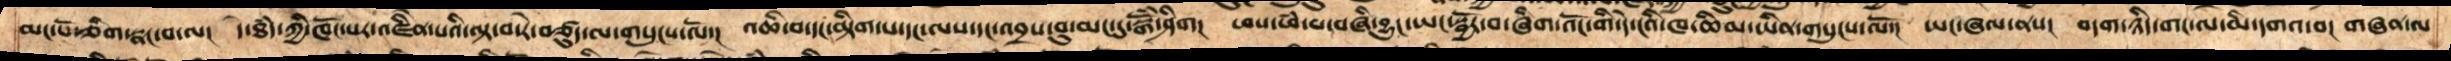མང་པོ་ཞིག་སྣང་བ་ལ།  དེ་ཐཾད་ཀྱི་ཁོང་པར་འཇིེན་པའི་ལྟ་བ་རེ་བཙུད་ལ་གསུངས་ལོ་།  འཆི་བ་དང་མྟིག་པ་དང་ལས་དང་འབྲས་བུ་མང་དུ་སྒོཾ་ཤིག། ཕས་ཕཾ་པ་བཞི་བྱུང་ཡང་སྦྱོར་བ་ཞིག་འོང་གི་དེ་ངའི་ཁ་ཆིམ་ཡིན་གསུངས་ལོ་།  ཡང་ཞལ་ནས།  བདག་ཉིད་གང་ལ་མི་དགའ་བ།  གཞན་ལ་
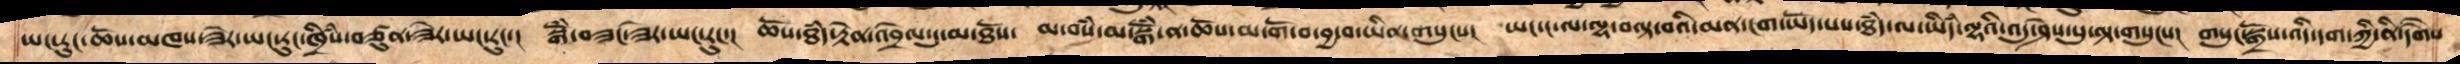ཡང་རུང་ཆོས་མཁས་ཟེར་ཡང་རུང་ཁྲིཾས་བཙུན་ཟེར་ཡང་རུང་།  སྒོཾ་བཟང་ཟེར་ཡང་རུང་།  ཆོས་ཐཾད་རྟེན་འབྲེལ་དུ་མ་ཐོས།  མ་བསཾ་མ་བསྒོཾ་ན་ཆོས་མ་གོ་བ་བྱ་བ་ཡིན་གསུངས།  ཡང་ང་ལ་ལྷ་བལྟ་བའི་མན་ངག་ཡོད་པས་ཐཾད་ལ་ཡིདཾ་ལྷའི་འདུ་ཤེས་སུ་ལྟ་གསུངས།  གསུངསྒྲོས་འདི་དག་ཀྱི་ནི་དགཻས་
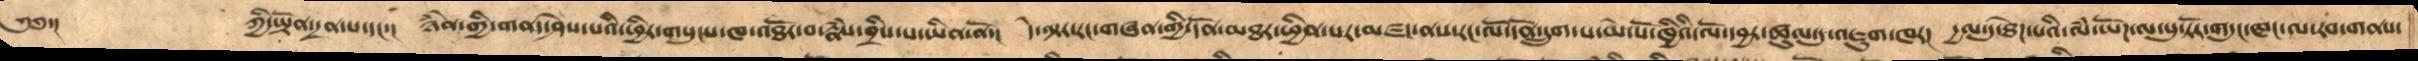༄༅་།    ཀྱི་ཡྟོན་དྲན་པ་དང་།  ཉེཾན་གྱི་གནད་ཤེས་པའི་ཕྱིར་གསུངས་ཁ་འཐོར་བ་རྣཾས་བྲིས་པ་ཡིན་ནོ།  དེ་ལྟར་རང་གཞན་གྱི་དོན་མཐར་ཕྱིན་པར་མཛད་ནས་རང་ལོ་དོན་དྲུག་པ་མེ་པོ་ཁྱིའི་ལོ་དབྱར་ཚུལ་དུ་འཇུག་ཁར།  དྱལ་དུ་ཐེཌ་པའི་ལཾ་ཡོད་ལ་པུ་ཏོར་གདུང་ཁང་ལ་རབ་གནས་
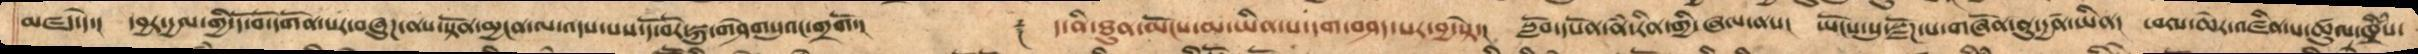མཛད་དེ།  དབྱར་དྱལ་གྱི་དོ་བོ་དགོན་པར་བཞུཌ་ནས་སྟོན་མྱངན་ལ་འདས་པས་དོ་བོར་སྐུ་གཤེགསུའང་གྲགོ་།    ༈  ད་ནི་ཐུན་མོངས་མ་ཡིན་པ་དག་བཤད་པར་བྱ་སྟེ།  སློབ་དཔོན་ནཾ་རིན་གྱི་ཞལ་ནས།  ཡོངས་སུ་སྫོཌ་པ་གཞོན་ནུ་དྱཚན་ཡིན།  ཕལ་ཆེར་འཛིན་པ་ཚུལ་ཁྲིཾས་
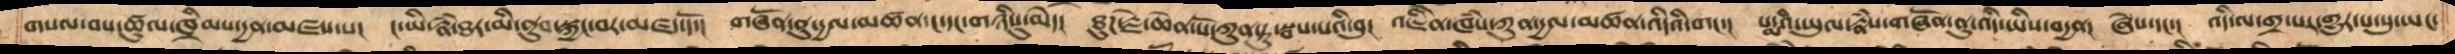གསལ་བས་ཚུལ་ཁྲིམས་དྱན་མཛས་པ།  ང་ཡི་རྣཾ་ཐར་མི་ནུབ་སྐྱང་བར་མཛད་དོ་།  གཞོན་ནུ་དྱལ་མཚན་ང་དང་གཉིསུ་མེད།  ཐུཌ་རྗེ་ཆེན་པོ་ཀུན་ཏུ་སྦས་པའི་བུ།  འཇིེན་ཁཾས་ཀུན་དྱལ་མཚན་འདིའི་གང་།  པདྨའི་ཡུལ་རྣཾས་གཞོན་ནུ་འདི་ཡིས་བདྱན།  ཞེས་དང་།  འདི་ལ་གྲ་པར་གྱུར་པ་སུ་ཡང་
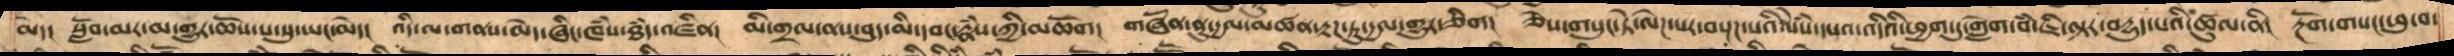མེད།   སློབ་མར་མ་གྱུར་ཆོས་པ་སུ་ཡང་མེད།  འདི་ལ་གནས་མེད་ཞིང་ཁཾས་ཐཾད་འཛིན།  མི་གྲལ་ནས་བུད་མི་དབང་རྣཾས་ཀྱི་མཆོག   གཞོན་ནུ་དྱལ་མཚན་རྟཌ་ཏུ་དྱལ་གྱུར་ཅིག  ཅེས་གསུང་ཏེ་ལེཌ་པར་བསྔཌ་པའི་སེསཾ་དཔའ་འདིའི་ཕྱག་དུ་གླེག་བཾ་ཇི་ལྟར་བདྱུད་པའི་ཚུལ་ནི།  རྔོག་གསང་ཕུ་བ་
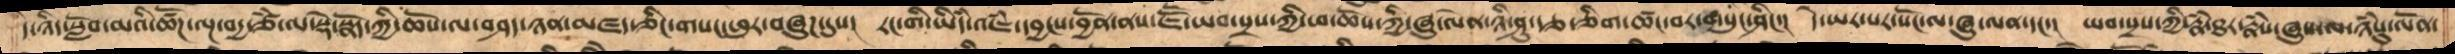དེ་ཉིད་སློབ་མའི་ཚོཌ་ལྔ་བདྱ་ཙཾ་ལ་སྡེ་སྣོད་ཀྱི་ཆོས་ལ་བཤད་ཉན་མཛད་ཅིང་གསང་ཕུར་བཞུཌ་དུས།  རང་གི་ཡིདཾ་འཇཾ་དབྱངས་བྱོན་ནས་ཇཽ་ཡབ་སྲས་ཀྱི་ཕ་ཆོས་ཀྱི་ཞུ་ལེན་ཉི་ཤུ་རྩ་ཅིག་ཚང་བར་གསུང་ཤིང་།  དེ་ཡར་པར་སོང་ལ་ཞུ་ལན་དང་།  ཡབ་སྲས་ཀྱི་རྣཾ་ཐར་རྣཾས་ཞུས་ལ་ཉཾསུ་ལོན་
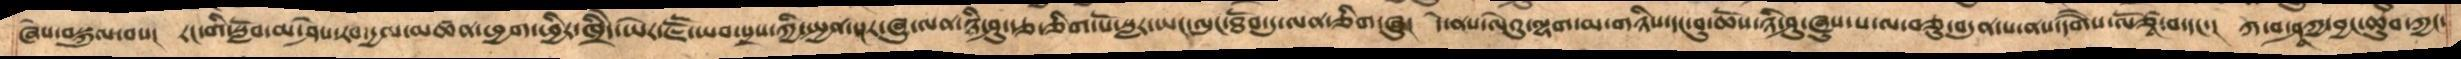ཞེས་བསྐུལ་བས།  རང་གི་སློབ་མ་ཤེས་རབ་དྱལ་མཚན་ཕྱག་ཕྱིར་ཁྲིདེཡེར་ཇཽ་ཡབ་སྲས་ཀྱི་སྤྱན་སྔར་ཞུ་ལན་ཉི་ཤུ་རྩ་ཅིག་པོ་སླར་ཡང་ལུང་ཐོབ་དུ་ལན་ཅིག་ཞུ།  དེ་ནས་ལེའུ་ལྷག་མ་གཉིས་དང་བུ་ཆོས་ཉི་ཤུ་ཞུས་པ་ལ་བཅུ་བདུན་པ་ནས་དགཻས་ལོཙཱ་བ་དང་།  ཀ་བ་ཤཱཀྱ་བྱང་ཆུབ་ཀྱང་
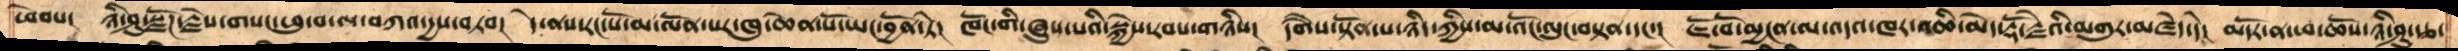ཕེབས།  ཉི་ཤུ་སྫོཌ་རྗེས་གསང་ཕུ་བ་ལ་བཀའ་དྱས་བཏབ།  དེ་ནས་རང་པོ་མ་ལོན་པར་ཁུ་ཆེན་པོ་ཡང་བྱོན་ཏེ།  ཁོང་གིས་ཞུས་པའི་སྐྱེས་རབས་གཉིས།  དགཻས་སྟོན་པ་ཉིད་ཀྱིས་མ་འོང་ལུང་བསྟན་དང་།  ཇོ་བོ་མྱངན་ལ་འདའ་ཁར་འཆི་མེད་རྡོ་རྗེའི་མགུར་མཛེད་དེ།  མདོར་ན་ཕ་ཆོས་ཉི་ཤུ་རྩ
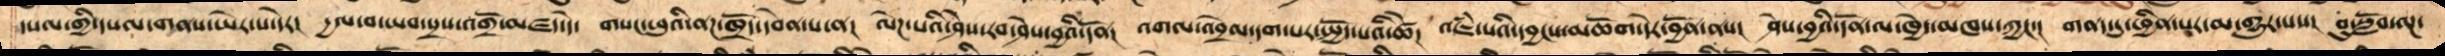དཔལ་གྱི་དཔལ་གནས་ཡེར་པ་དེར།  དྱལ་བ་ཡབ་སྲས་འགྲོ་མཛད་དེ།  གསང་ཕུའི་ནཌ་ཁྲོད་དབེན་པ་ན།  ལེཌ་པའི་ཤེས་རབ་ཤེས་བྱའི་དོན།  འགལ་འབྲེལ་དག་པར་སྤྱོད་པའི་ཚེ།  འཇཾ་པའི་དབྱངས་མཆོག་དེར་བྱོན་ནས།  ཤེས་བྱའི་དོན་ལ་ཁྱེད་མཁས་ཀྱང་།  གནད་དུ་ཕྱིན་པར་མ་འགྱུར་བས།  བུ་སློབ་ལྔ་
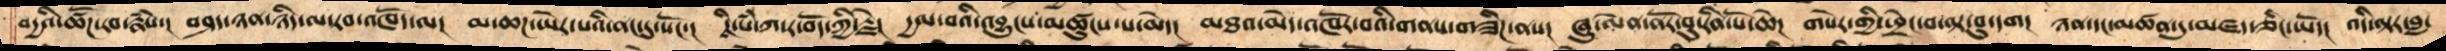བདྱའི་ཚོཌ་རབ་རྣཾས།  བཤད་ཉན་ཉིད་ལ་རབ་འཁོད་ལ།  མ་ཆཌ་ཡེར་པའི་ནང་དུ་སོང་།  དཱི་པཾ་ཀ་ར་བོད་ཀྱི་རྗེ།  དྱལ་བའི་འབྱུངས་མཚུངས་པ་མེད།  མཐའ་མེད་འཁོར་བའི་གནས་གཟིཌ་ནས།  ཞུ་ལེན་ནོར་བུ་རིན་པོ་ཆེ།  གསེར་གྱི་ཕྲེང་བ་ལྟ་བུ་དག།  ཉིན་དང་མཚན་དུ་མཛད་ཅིང་ཡོད།  འདི་ལྟར་བླ་
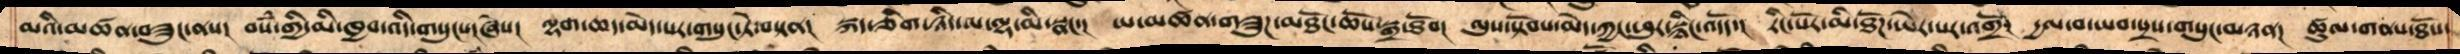མའི་མཚན་བཟུང་ནས།  བསཾ་གྱི་མི་ཁྱབ་འདི་གསུངས་ཞེས།  ལྷག་ཆད་མེད་པར་གསུང་ཏེ་བསྟན།  སྐད་ཅིག་ཉིད་ལ་ལྷ་མི་སྣང་།  ཡ་མཚན་གཟུཌ་མཐོང་ཆོས་སྒྲ་ཐོས།  ལུས་སྟོབས་མེད་ཀྱང་ཕུར་སྙིང་འདོད།  རིང་པོར་མི་ཐོཌ་ཡེར་པར་འགྲོ།  དྱལ་བ་ཡབ་སྲས་གསུང་མཉན།  ཚུལ་གནས་ཐོས་
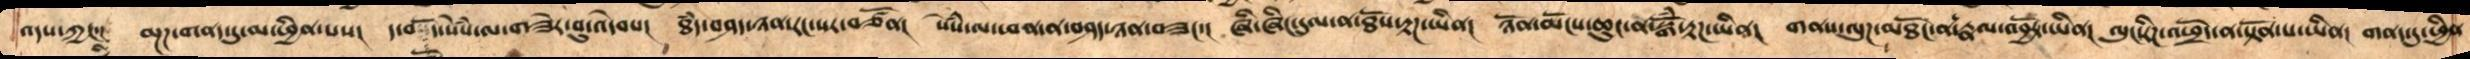འདས་ཀྱང་།  མྔཌ་གནད་དུ་མ་ཕྱིན་པས།  ད་གཟོད་སེཾས་ལ་གཟེར་བུ་འདེབས།  ཐཾད་བཤད་ཉན་རང་སར་བཙོན།  སེཾས་ལ་ཕན་ན་བཤད་ཉན་བཟང་།  ཞི་ཞིང་དུལ་ན་ཐོས་རྟཌ་ཡིན།  ཉོན་མོངས་ཆུང་ན་སྒོཾ་རྟཌ་ཡིན།  གནས་ལུཌ་མཐོང་ན་རྣལ་འབྱོར་ཡིན།  ལུང་རིཌ་འཕྲོད་ན་སྟོན་པ་ཡིན།  གནད་དུ་ཕྱིན་
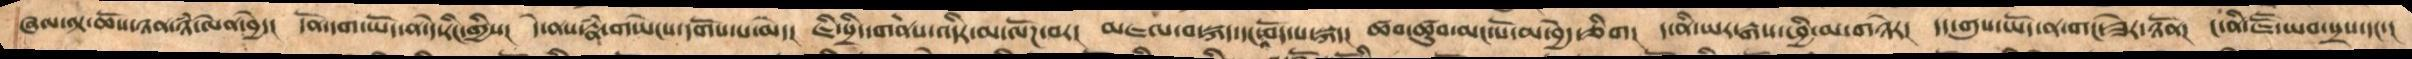ཞལ་ལྟ་ཆོས་ཉན་ཉཾ་ལེན་བྱེད།  དོན་དག་ཡོད་ན་དེ་རིང་གྱིས། དེ་ནས་རྣཾ་གཡེངས་དགོས་པ་མེད།  ཇི་སྲིད་གནས་འདིར་མ་ལོཌ་བར།  མཇལ་བ་སྐད་དང་བོད་པ་སྐད།  ཚབ་ཚུབ་མང་པོ་མ་བྱེད་ཅིག།  ད་ནི་ཡར་རྒས་ཕྱི་མ་གཉེར། དད་གུས་ཡོད་ན་གང་ཟེར་ཉོན། ང་ནི་ཇཽ་ཡབ་སྲས་དང་།
